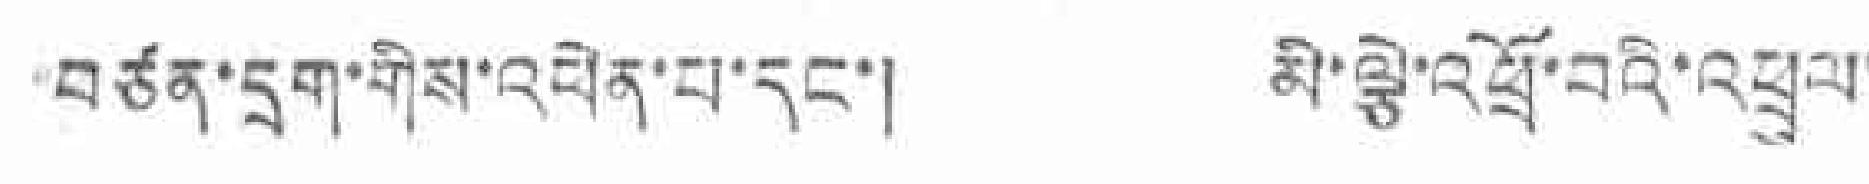བཙན་དྲག་གིས་འཕེན་པ་དང་། མི་ལྕེ་འཕྲོ་བའི་འཕྲུལ་
